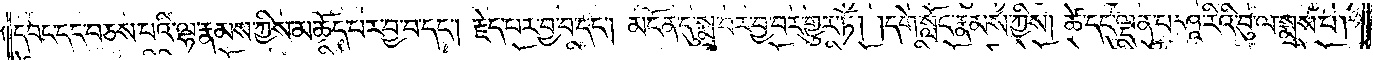དབང་དང་བཅས་པའི་ལྷ་རྣམས་ཀྱིས་མཆོད་པར་བྱ་བ་དང༌། རྗེད་པར་བྱ་བ་དང༌། མངོན་དུ་སྨྲ་བར་བྱ་བར་གྱུར་ཏོ། །དགེ་སློང་རྣམས་ཀྱིས། ཚེ་དང་ལྡན་པ་ཤཱ་རིའི་བུ་ལ་སྨྲས་པ།
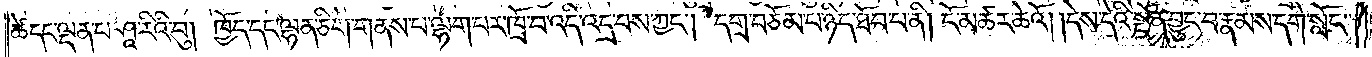ཚེ་དང་ལྡན་པ་ཤཱ་རིའི་བུ། ཁྱོད་དང་ལྷན་ཅིག་གནས་པ་ལྷག་པར་ཁྲོ་བ་འདི་འདྲ་བས་ཀྱང༌། དགྲ་བཅོམ་པ་ཉིད་ཐོབ་པ་ནི། ངོ་མཚར་ཆེའོ། །དེས་དེའི་སྔོན་བྱུང་བ་རྣམས་དགེ་སློང་
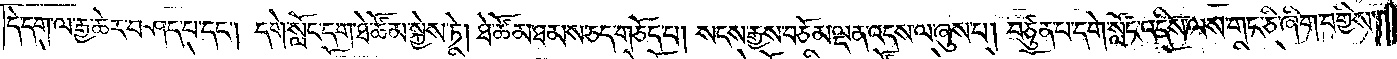དེ་དག་ལ་རྒྱ་ཆེར་བཤད་པ་དང༌། དགེ་སློང་དག་ཐེ་ཚོམ་སྐྱེས་ཏེ། ཐེ་ཚོམ་ཐམས་ཅད་གཅོད་པ། སངས་རྒྱས་བཅོམ་ལྡན་འདས་ལ་ཞུས་པ། བཙུན་པ་དགེ་སློང་འདིས་ལས་གང་ཅི་ཞིག་བགྱིས་
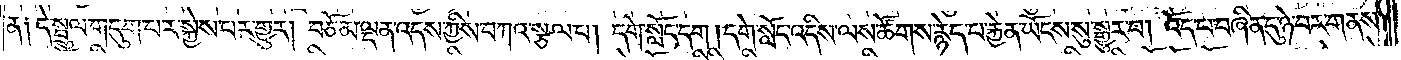ན། དེ་སྦྲུལ་གདུག་པར་སྐྱེས་པར་གྱུར། བཅོམ་ལྡན་འདས་ཀྱིས་བཀའ་སྩལ་པ། དགེ་སློང་དག །དགེ་སློང་འདིས་ལས་ཚོགས་རྙེད་པ་རྐྱེན་ཡོངས་སུ་སྒྱུར་བ། འོད་པ་བཞིན་དུ་ཉེ་བར་གནས་
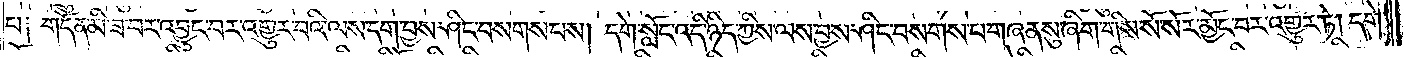པ། གདོན་མི་ཟ་བར་འབྱུང་བར་འགྱུར་བའི་ལས་དག་བྱས་ཤིང་བསགས་པས། དགེ་སློང་འདི་ཉིད་ཀྱིས་ལས་བྱས་ཤིང་བསགས་པ་གཞན་སུ་ཞིག་གིས་སོ་སོར་མྱོང་བར་འགྱུར་ཏེ། དགེ་
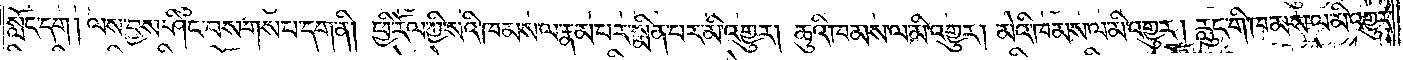སློང་དག། ལས་བྱས་ཤིང་བསགས་པ་དག་ནི། ཕྱི་རོལ་ཀྱི་སའི་ཁམས་ལ་རྣམ་པར་སྨིན་པར་མི་འགྱུར། ཆུའི་ཁམས་ལ་མི་འགྱུར། མེའི་ཁམས་ལ་མི་འགྱུར། རླུང་གི་ཁམས་ལ་མི་འགྱུར་
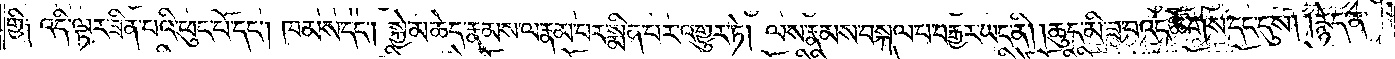གྱི། འདི་ལྟར་ཟིན་པའི་ཕུང་པོ་དང༌། ཁམས་དང༌། སྐྱེ་མཆེད་རྣམས་ལ་རྣམ་པར་སྨིན་པར་འགྱུར་ཏེ། ལས་རྣམས་བསྐལ་པ་བརྒྱར་ཡང་ནི། །ཆུད་མི་ཟ་བའང་ཚོགས་དང་དུས། །རྙེད་ན་
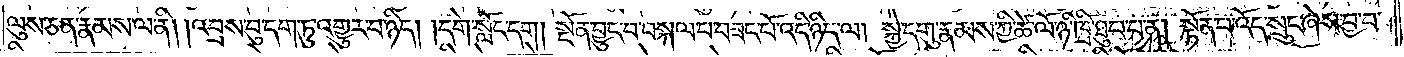ལུས་ཅན་རྣམས་ལ་ནི། །འབྲས་བུ་དག་ཏུ་འགྱུར་བ་ཉིད། །དགེ་སློང་དག། སྔོན་བྱུང་བ་བསྐལ་པ་བཟང་པོ་འདི་ཉིད་ལ། སྐྱེ་དགུ་རྣམས་ཀྱི་ཚེ་ལོ་ཉི་ཁྲི་ཐུབ་པ་ན། སྟོན་པ་འོད་སྲུང་ཞེས་བྱ་བ་
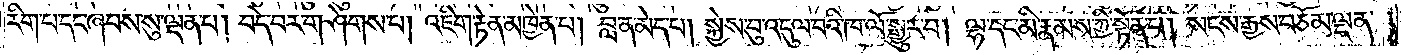རིག་པ་དང་ཞབས་སུ་ལྡན་པ། བདེ་བར་གཤེགས་པ། འཇིག་རྟེན་མཁྱེན་པ། བླ་ན་མེད་པ། སྐྱེས་བུ་འདུལ་བའི་ཁ་ལོ་སྒྱུར་བ། ལྷ་དང་མི་རྣམས་ཀྱི་སྟོན་པ། སངས་རྒྱས་བཅོམ་ལྡན་
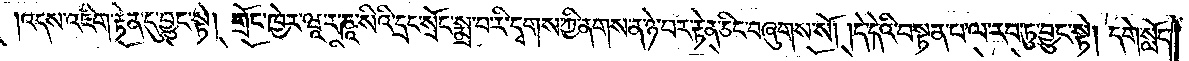འདས་འཇིག་རྟེན་དུ་བྱུང་སྟེ། གྲོང་ཁྱེར་ཝཱ་ར་ཎཱ་སིའི་དྲང་སྲོང་སྨྲ་བ་རི་དྭགས་ཀྱི་ནགས་ན་ཉེ་བར་རྟེན་ཅིང་བཞུགས་སོ། །དེ་དེའི་བསྟན་པ་ལ་རབ་ཏུ་བྱུང་སྟེ། དགེ་སློང་
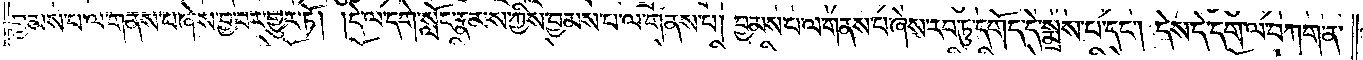བྱམས་པ་ལ་གནས་པ་ཞེས་བྱ་བར་གྱུར་ཏོ། །དེ་ལ་དགེ་སློང་རྣམས་ཀྱིས་བྱམས་པ་ལ་གནས་པ། བྱམས་པ་ལ་གནས་པ་ཞེས་རབ་ཏུ་དགོད་དེ་སྨྲས་པ་དང༌། དེས་དེ་དག་ལ་བཀག་ན་
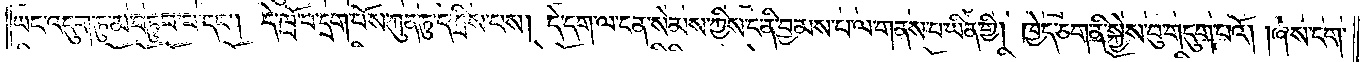ཡང་འདུག་ཏུ་མ་བཏུབ་པ་དང༌། དེ་ཁྲོ་བ་དྲག་པོས་ཀུན་ཏུ་དཀྲིས་པས། དེ་དག་ལ་ངན་སེམས་ཀྱིས་ང་ནི་བྱམས་པ་ལ་གནས་པ་ཡིན་གྱི། ཁྱེད་ཅག་ནི་སྐྱེས་བུ་གདུག་པའོ། །ཞེས་ངག་
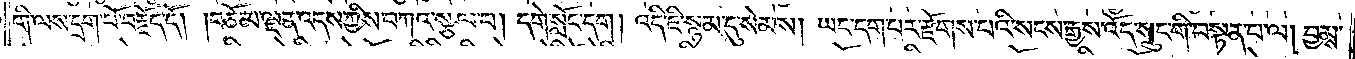གི་ལས་དྲག་པོ་བརྗོད་དོ། །བཅོམ་ལྡན་འདས་ཀྱིས་བཀའ་སྩལ་པ། དགེ་སློང་དག། འདི་ཇི་སྙམ་དུ་སེམས། ཡང་དག་པར་རྫོགས་པའི་སངས་རྒྱས་འོད་སྲུང་གི་བསྟན་པ་ལ། བྱམས་
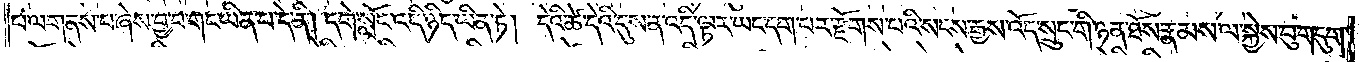པ་ལ་གནས་པ་ཞེས་བྱ་བ་གང་ཡིན་པ་དེ་ནི། དགེ་སློང་འདི་ཉིད་ཡིན་ཏེ། དེའི་ཚེ་དེའི་དུས་ན་འདི་ལྟར་ཡང་དག་པར་རྫོགས་པའི་སངས་རྒྱས་འོད་སྲུང་གི་ཉན་ཐོས་རྣམས་ལ་སྐྱེས་བུ་གདུག་
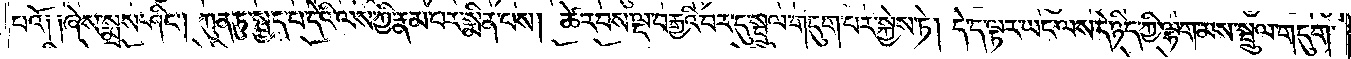པའོ། །ཞེས་སྨྲས་ཤིང༌། ཀུན་ཏུ་སྤྱད་པ་དེའི་ལས་ཀྱི་རྣམ་པར་སྨིན་པས། ཚེ་རབས་ལྔ་བརྒྱའི་བར་དུ་སྦྲུལ་གདུག་པར་སྐྱེས་ཏེ། དེ་ད་ལྟར་ཡང་ལས་དེ་ཉིད་ཀྱི་ལྷག་མས་སྤྲུལ་གདུག་
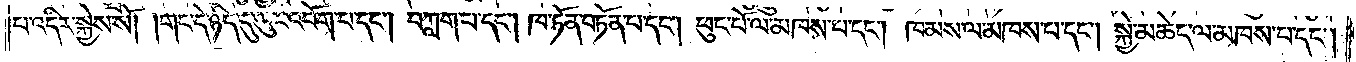པ་འདིར་སྐྱེས་སོ། །གང་དེ་ཉིད་དུ་ལུང་འབོག་པ་དང༌། བཀླག་པ་དང༌། ཁ་ཏོན་བཏོན་པ་དང༌། ཕུང་པོ་ལ་མཁས་པ་དང༌། ཁམས་ལ་མཁས་པ་དང༌། སྐྱེ་མཆེད་ལ་མཁས་པ་དང༌།
